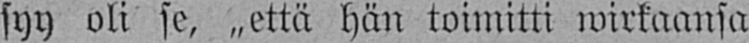syy oli se, „että hän toimitti wirkaansa
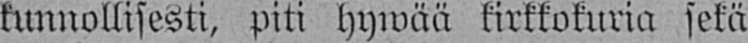kunnollisesti, piti hywää kirkkokuria sekä
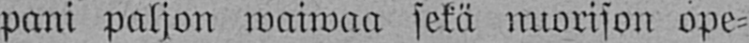pani paljon waiwaa sekä nuorison ope-
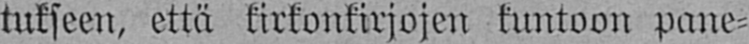tukseen, että kirkonkirjojen kuntoon pane-
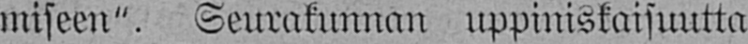miseen". Seurakunnan uppiniskaisuutta
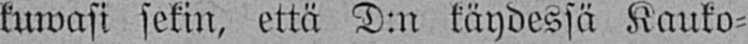kuwasi sekin, että D:n käydessä Kauko-
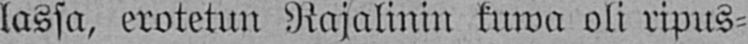lassa, erotetun Rajalinin kuwa oli ripus-
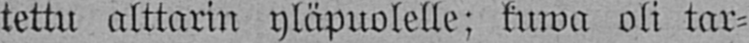tettu alttarin yläpuolelle: kuwa oli tar-
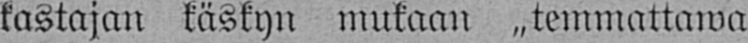kastajan käskyn mukaan „temmattawa
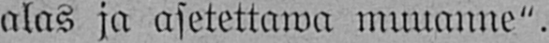alas ja asetettawa muuanne".
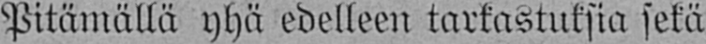Pitämällä yhä edelleen tarkastuksia sekä
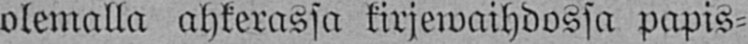olemalla ahkerassa kirjewaihdossa papis-
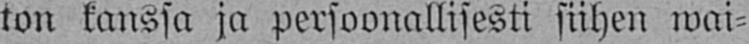ton kanssa ja persoonallisesti siihen wai-
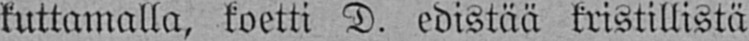kuttamalla, koetti D. edistää kristillistä
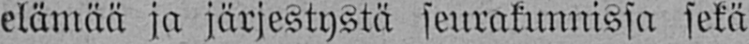elämää ja järjestystä seurakunnissa sekä
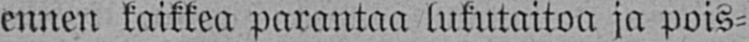ennen kaikkea parantaa lukutaitoa ja pois-
